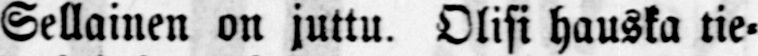Sellainen on juttu. Olisi hauska tie-
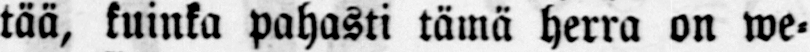tää, kuinka pahasti tämä herra on we-
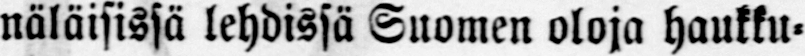näläisissä lehdissä Suomen oloja haukku-
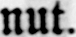nut.
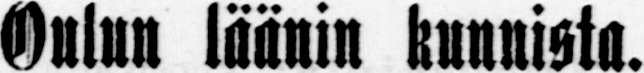Oulun läänin kunnista.
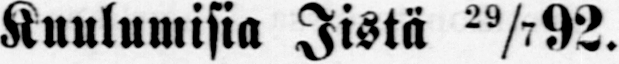Kuulumisia Iistä 29/7 92.
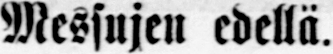Messujen edellä.
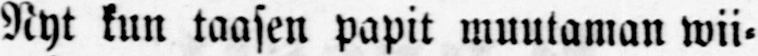Nyt kun taasen papit muutaman wii-
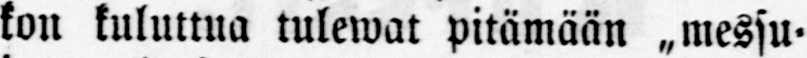kon kuluttua tulewat pitämään „messu-
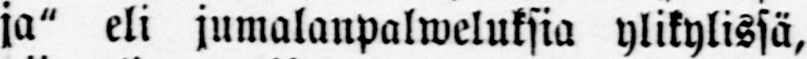ja" eli jumalanpalweluksia ylikylissä,
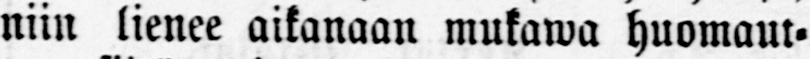niin lienee aikanaan mukawa huomaut-
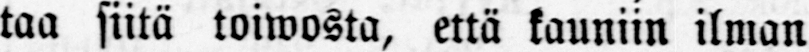taa siitä toiwosta, että kauniin ilman
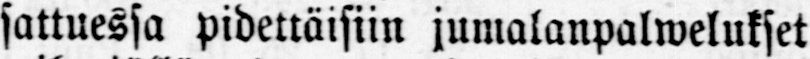sattuessa pidettäisiin jumalanpalwelukset
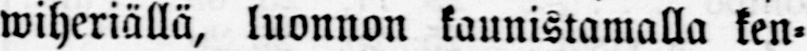wiheriällä, luonnon kaunistamalla ken-
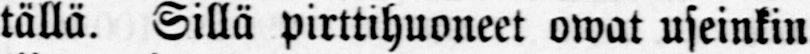tällä. Sillä pirttihuoneet owat useinkin
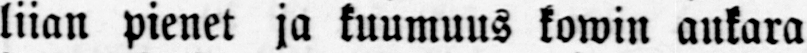liian pienet ja kuumuus kowin ankara
